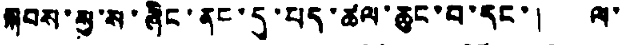སྐབས་སུ་ས་ཞིང་ནང་དུ་པད་ཚལ་ཆུང་བ་དང་། ལ་
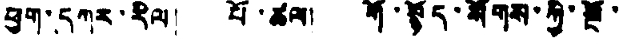ཕུག་དཀར་རིལ། པོ་ཚལ། གོ་སྙོད་སོགས་ཀྱི་སྔོ་
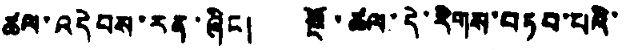ཚལ་འདེབས་རན་ཞིང། སྔོ་ཚལ་དེ་རིགས་བཏབ་པའི་
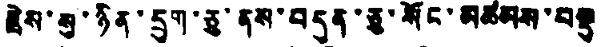རྗེས་སུ་སྙིན་དྲུག་ཅུ་ནས་བདུན་ཅུ་སོང་མཚམས་བསྡུ་་
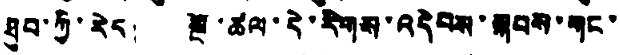ཐུབ་ཀྱི་རེད། སྔོ་ཚལ་དེ་རིགས་འདེབས་སྐབས་གང་
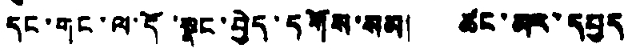དང་གང་ལ་དོ་སྣང་བྱེད་དགོས་སམ། ཚང་མར་དཔྱད
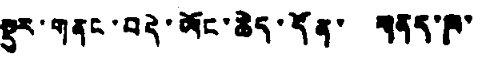སྡུར་གནང་བདེ་ཡོང་ཆེད་དོན་ གནད་ཁ་
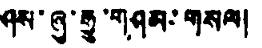ཤས་ཞུ་རྒྱུ་གཤམ་གསལ།
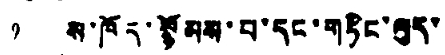༡ ས་ཁོད་སྙོམས་པ་དང་གཏིང་ལུད་
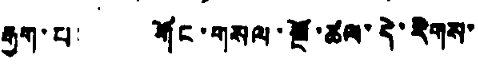རྒྱག་པ། གོང་གསལ་སྔོ་ཚལ་དེ་རིགས་
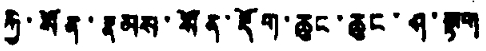ཀྱི་སོན་རྣམས་སོན་རྡོག་ཆུང་ཆུང་ཤ་སྟག
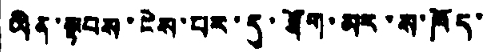ཡིན་སྟབས་ངེས་པར་དུ་ཐོག་མར་ས་ཁོད་
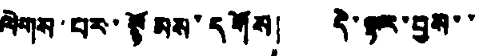ལེགས་པར་སྙོམས་དགོས། དེ་ལྟར་བྱས་་
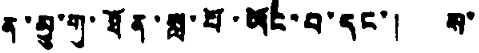ན་མྱུ་གུ་ཐོན་སླ་པོ་ཡོང་བ་དང་། ས་
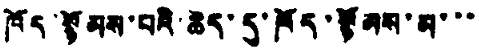ཁོད་སྙོམས་པའི་ཆེད་དུ་ཁོད་སྙོམས་མ་་་
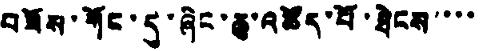བཟོས་གོང་དུ་ཞིང་ཆུ་འཚོད་པོ་ཐེངས་་་་
